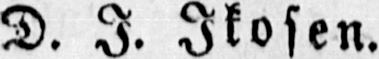D. I. Ikosen.
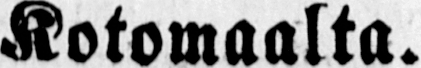Kotomaalta.
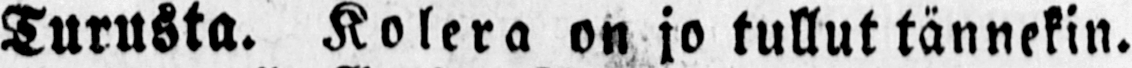Turusta. Kolera on jo tullut tännekin.
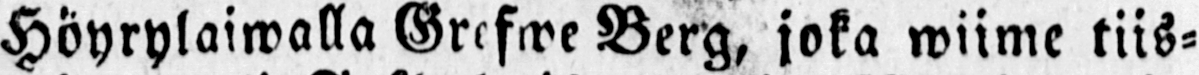Höyrylaiwalla Grefwe Berg, joka wiime tiis-
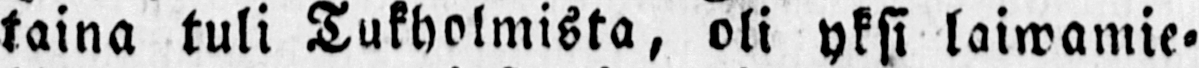taina tuli Tukholmista, oli yksi laiwamie-
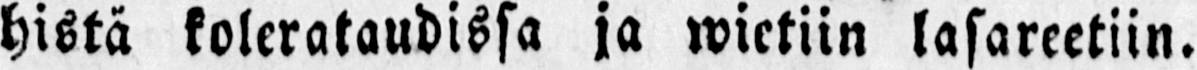hista kolerataudissa ja wietiin lasareetiin.
